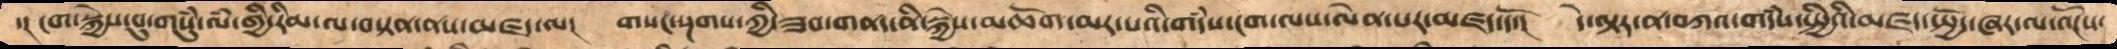་། ངག་སྐྱེས་བུ་གསུཾ་ལཾ་གྱི་རིམ་ལ་བསྟན་ནས་མཛད་ལ།   གསང་སྔགས་ཀྱི་ཟབ་གནད་ནི་སྐྱེས་མཆོག་མར་པའི་གདཾས་ངག་ལས་ལེན་པར་མཛད་དོ་།  དེ་ལྟར་ན་བཀའ་གདཾས་སྤྱིའི་མཛད་སྤྱོད་ཞར་ལ་འོངས་
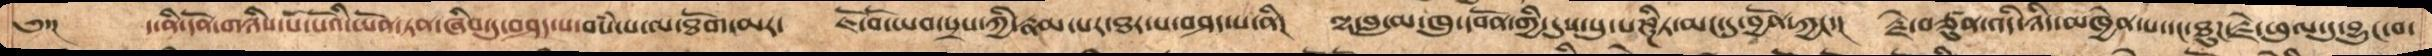ཀུ་།  ད་ནི་དོན་གཉིས་སོ་སོའི་ཡོན་ཏན་ཞིབ་དུ་བཤད་པ་བསཾ་པ་ལ་ཐོག་མར་  ཇོ་བོ་ཡབ་སྲས་ཀྱི་རྣམ་པར་ཐར་པ་བཤད་པ་ནི།   ལྷ་བླ་མ་ཁུ་དབོན་གྱི་དུས་སུ་པཎྜིཏ་མང་དུ་བྱོན་ཀྱང་།  རྗེ་བཙུན་འདི་ཉིད་མཁྱེན་པ་དང་ཐུཌ་རྗེ་ཕུལ་དུ་བྱུང་བ་
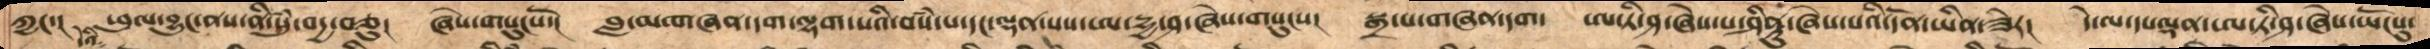ཀྱང་།   ཕུལ་བྱུང་ནས་ནི་སུཾ་བདྱ་བཅུ།   ཞེས་གསུངསོ།  བླ་མ་གཞན་དག་ལྷག་པའི་བསཾ་པ་དང་ལྡན་པཔ་ཨ་དདྷྱ་ཤ་ཞེས་གསུངས།  སྒྲ་པ་གཞན་དག་  ཨ་ཏི་ཤ་ཞེས་པ་ཤིནྟུ་ཞེས་པའི་དོན་ཡིན་ཟེར།  དེ་ལ་དཔལྡན་ཨ་ཏི་ཤ་ཞེས་ཡོངསུ་
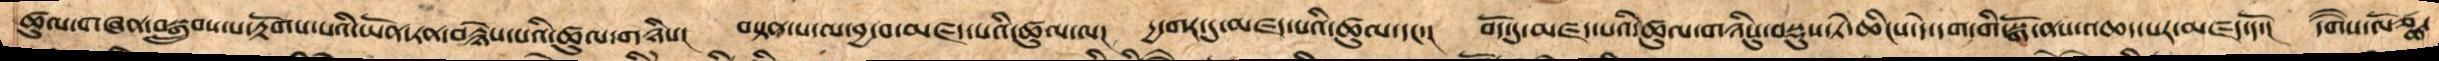ཚུལ་བཞན་བསྒྲུབས་པ་རྟོགས་པའི་ཡོན་ཏན་བརྙེས་པའི་ཚུལ་གཉིས།  བསྟན་པ་ལ་བྱ་བ་མཛད་པའི་ཚུལ་ལ།   དྱ་གར་དུ་མཛད་པའི་ཚུལ་དང་།  བོད་དུ་མཛད་པའི་ཚུལ་གཉིསུ་བསྡུས་ཏེ་ཆིངས་དེ་དག་གི་སྒོ་ནས་འཆད་པར་མཛད་དོ།  དགཻས་ལོཙྪ་
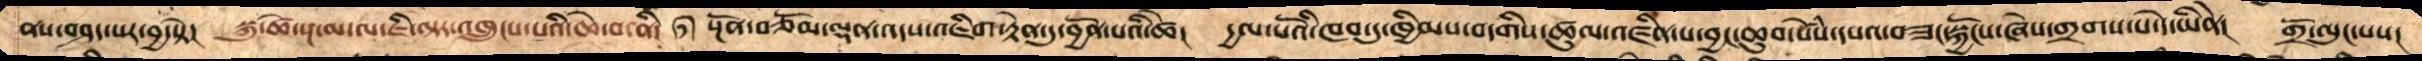ནས་བཤད་པར་བྱ་སྟེ།   སྐུ་ཚེ་སྔ་མ་ལ་ཇི་ལྟར་འཁྲུངས་པའི་ཆེ་བ་ནི།   ༼༡༽ སྔོན་བཅོམ་ལྡན་འདས་འཇིག་རྟེན་དུ་བྱོན་པའི་ཚེ། དྱལ་པོའི་ཁབ་ཏུ་ཁྱིམས་བདགིས་ཚུལ་འཛིན་པ་བྱང་ཆུབ་སེཾས་དཔའ་བཟང་སྐྱོངས་ཞེས་གྲགས་པ་དེ་ཡིནེ།  གྲོ་ལུང་པས།
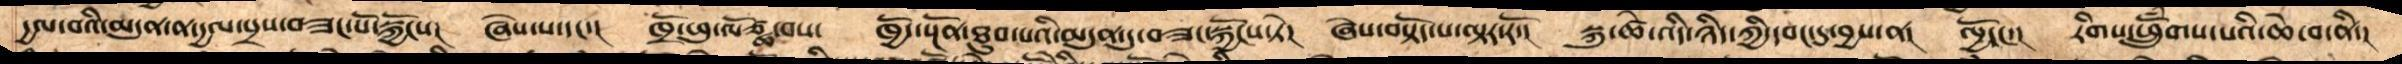དྱལ་བའི་མདུན་ན་དྱལ་སྲས་བཟང་པོ་སྐྱོངས།   ཞེས་པ་དང་།  ཁྲོ་ཕུ་ལོཙྪ་བས།   ཁྱོད་སྔོན་ཐུབ་པའི་མདུན་ན་བཟང་སྐྱོངས་ཏེ།  ཞེས་བསྟོད་པ་ལྟར་རོ།   སྐུ་ཚེ་འདི་ཉིད་ཀྱི་དབང་དུ་བྱས་ན།   ལྱོདང་།  རིགས་ཕྲུཾཚོགས་པའི་ཆེ་བ་ནི་།
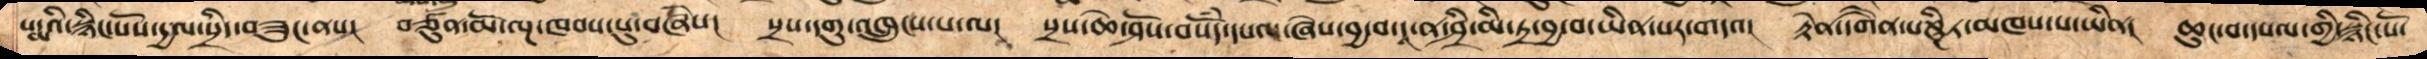པདྨའི་སྙིང་པོས་དྱལ་སྲིད་བཟུང་ནས།  བཙུན་མོ་ལྔ་ཁབས་སུ་བཞེས།   སྲས་དགུ་འཁྲུངས་པ་ལ།  སྲས་ཆེ་ཤོས་བསོཾད་དཔལ་བྱ་བ་དཱ་ན་ཤྲཱི་མི་ཏྲ་བྱ་བ་ཡིན་པར་གདའ།    རྟེན་དགཻན་པཎྜིཏ་མཁས་པ་ཡིན།  ཆུང་བ་དཔལ་གྱི་སྙིང་པོ་
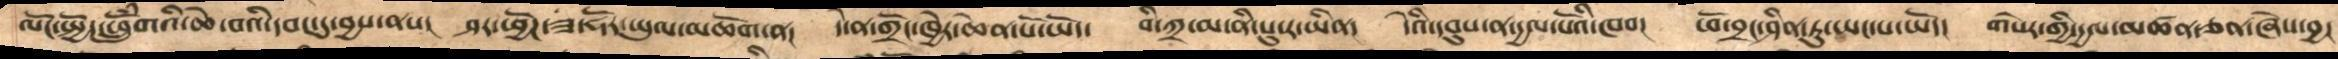ལོང་སྤྱོད་ཕྲོུཾགའི་ཆེ་བའི་དབང་དུ་བྱས་ནས།    ཤར་ཕྱོཌ་ཟ་ཧོར་ཡུལ་མཆོག་ན།    དེ་ན་གྲོང་ཁྱེར་ཆེན་པོ་ཡོད་   བི་ཀྲ་མ་ནི་པུ་ར་ཡིན།   དེའི་དབུས་ན་དྱལ་པོའི་ཁབ།   ཕོ་བྲང་ཤིན་ཏུ་ཡང་པ་ཡོད།   གསེར་གྱི་དྱལ་མཚན་ཅན་ཞེས་བྱ།
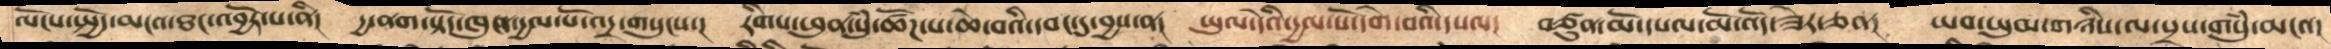ལོངས་སྤྱོད་མངའ་ཐང་འབྱོར་པ་ནི།   དྱ་ནག་སྟོང་ཁུན་རྒྱལ་པོ་འདྲ་གསུངས་།   རིགས་ཕུན་སུཾ་ཚོཌ་པ་ཆེ་བའི་དབང་དུ་བྱས་ན། ཡུལ་དེའི་དྱལ་པོ་དགེ་བའི་དཔལ།   བཙུན་མོ་དཔལ་མོ་འོད་ཟེར་ཅན།   ཡབ་ཡུམ་གཉིས་ལ་སྲས་གསུཾ་མངའ།
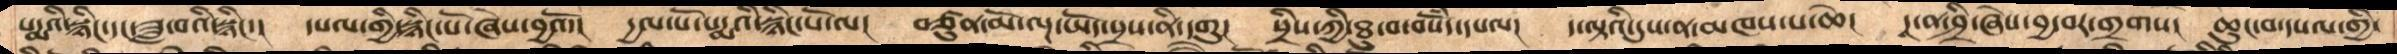པདྨའི་སྙིང་དང་ཟླ་བའི་སྙིང་།   དཔལ་གྱི་སྙིང་པོ་ཞེས་བྱའོ།   དྱལ་པོ་པདྨའི་སྙིང་པོ་ལ།   བཙུན་མོ་ལྔ་ཡོད་སྲས་ནི་དགུ།   སྲིས་ཀྱི་ཐུ་བ་བསོདཾ་དཔལ།   ད་ལྟའི་དུས་ན་མཁས་པ་ཆེ།   དཱ་ན་ཤྲཱི་ཞེས་བྱ་བར་གྲགས།   ཆུང་བ་དཔལ་གྱི་
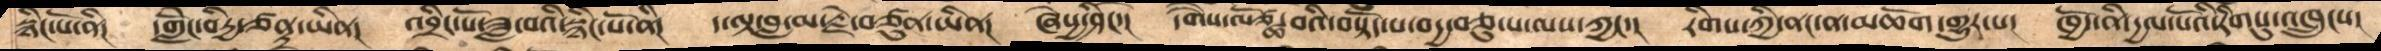སྙིང་པོ་ནི།   དགླེོང་བིརྱ་ཙནྡྲ་ཡིན།   འབྲིང་པོ་ཟླ་བའི་སྙིང་པོ་ནི།   ད་ལྟ་བླ་མ་རྗེ་བཙུན་ཡིན།   ཞེསྱ་ཤིང་།   དགཻས་ལོཙྪ་བའི་བསྟོད་པ་བདྱ་བཅུ་པ་ལས་ཀྱང་།   རིགས་ཀྱི་ནང་ན་མཆོག་གྱུར་པ།   ཁྱོད་ནི་རྒྱལ་པོའི་རིགསུ་འཁྲུངས།
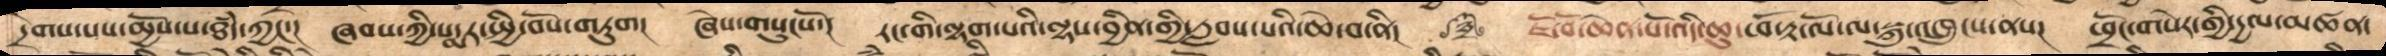དྲེགས་པས་མྱོས་པ་ཐཾད་ཀྱང་།    ཞབས་ཀྱི་པདྨར་སྤྱི་བོས་གཏུག།   ཞེས་གསུངསོ་།   རང་གི་ལྷག་པའི་ལྷས་བྱིན་གྱི་རླབས་པའི་ཆེ་བ་ནི།  ༼༣༽    ཇོ་བོ་ཆེན་པོ་འདི་ཆུ་ཕོ་རྟ་ལོ་ལ་སྐུ་འཁྲུངས་ནས།    ཕྲོང་གསེར་གྱི་དྱལ་མཚན་
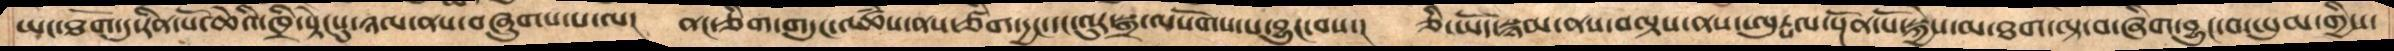ཡང་ཐོག་དུ་རིན་པོ་ཆེའི་ཁྲི་སྟེངསུ་ཉལ་ནས་བཞུགས་པ་ལ།   ནང་གཅིག་གདུང་འཚཾས་ནས་ཙིག་དྱང་དང་འུར་སྒྲ་ལསོགས་པ་བྱུང་བས་།   ཅི་ཡོད་སྙམ་ནས་བལྟས་ནས་ཨུཏྤལ་སྔོན་པོ་སྐྱེས་མ་ཐག་ལྟ་བ་ཞིག་བྱུང་བ་ཡུམ་གྱིས་
